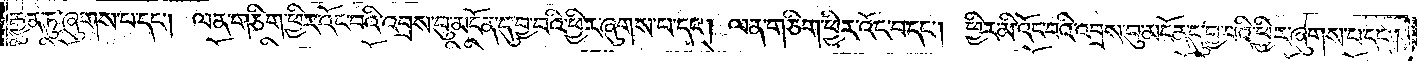རྒྱུན་ཏུ་ཞུགས་པ་དང༌། ལན་གཅིག་ཕྱིར་འོང་བའི་འབྲས་བུ་མངོན་དུ་བྱ་བའི་ཕྱིར་ཞུགས་པ་དང༌། ལན་གཅིག་ཕྱིར་འོང་བ་དང༌། ཕྱིར་མི་འོང་བའི་འབྲས་བུ་མངོན་དུ་བྱ་བའི་ཕྱིར་ཞུགས་པ་དང༌།
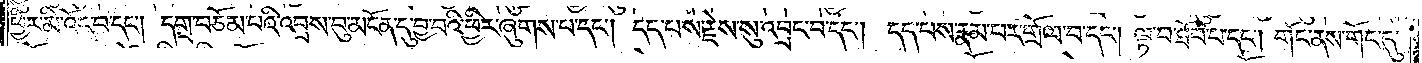ཕྱིར་མི་འོང་བ་དང༌། དགྲ་བཅོམ་པའི་འབྲས་བུ་མངོན་དུ་བྱ་བའི་ཕྱིར་ཞུགས་པ་དང༌། དད་པས་རྗེས་སུ་འབྲང་བ་དང༌། དད་པས་རྣམ་པར་གྲོལ་བ་དང༌། ལྟ་བ་ཐོབ་པ་དང༌། གོང་ནས་གོང་དུ་
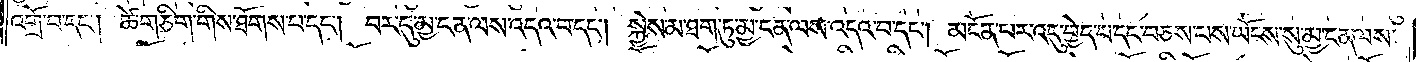འགྲོ་བ་དང༌། ཚེ་གཅིག་གིས་ཐོགས་པ་དང༌། བར་དུ་མྱ་ངན་ལས་འདའ་བ་དང༌། སྐྱེས་མ་ཐག་ཏུ་མྱ་ངན་ལས་འདའ་བ་དང༌། མངོན་པར་འདུ་བྱེད་པ་དང་བཅས་པས་ཡོངས་སུ་མྱ་ངན་ལས་
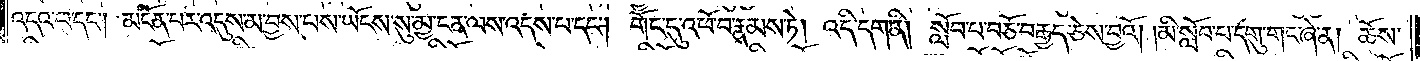འདའ་བ་དང༌། མངོན་པར་འདུས་མ་བྱས་པས་ཡོངས་སུ་མྱ་ངན་ལས་འདས་པ་དང༌། གོང་དུ་འཕོ་བ་རྣམས་ཏེ། འདི་དག་ནི། སློབ་པ་བཅོ་བརྒྱད་ཅེས་བྱའོ། །མི་སློབ་པ་དགུ་གང་ཞེ་ན། ཆོས་
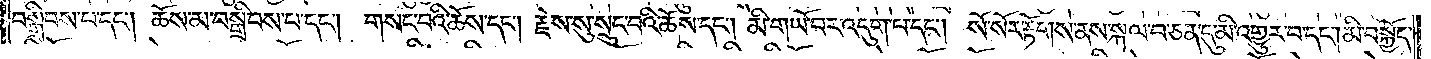བསྒྲིབས་པ་དང༌། ཆོས་མ་བསྒྲིབས་པ་དང༌། གསང་བའི་ཆོས་དང༌། རྗེས་སུ་སྲུང་བའི་ཆོས་དང༌། མི་གཡོ་བར་འདུག་པ་དང༌། སོ་སོར་རྟོགས་ནས་སྐལ་བ་ཅན་དུ་མི་འགྱུར་བ་དང༌། མི་བསྐྱོད་
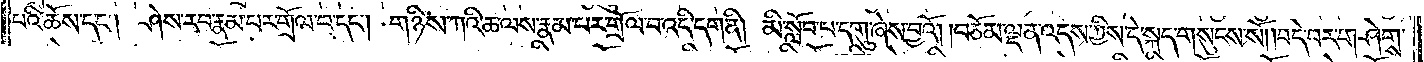པའི་ཆོས་དང༌། ཤེས་རབ་རྣམ་པར་གྲོལ་བ་དང༌། གཉིས་ཀའི་ཆ་ལས་རྣམ་པར་གྲོལ་བ་འདི་དག་ནི། མི་སློབ་པ་དགུ་ཞེས་བྱའོ། །བཅོམ་ལྡན་འདས་ཀྱིས་དེ་སྐད་གསུངས་སོ། །བདེ་བར་གཤེགས་
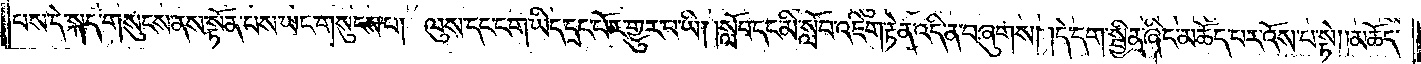པས་དེ་སྐད་གསུངས་ནས་སྟོན་པས་ཡང་གསུངས་པ། ལུས་དང་ངག་ཡིད་དྲང་པོར་གྱུར་པ་ཡི། །སློབ་དང་མི་སློབ་འཇིག་རྟེན་འདི་ན་བཞུགས། །དེ་དག་སྦྱིན་ཞིང་མཆོད་པར་འོས་པ་སྟེ། །མཆོད་
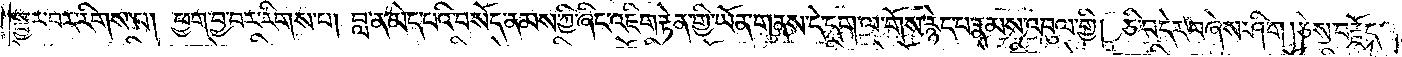སྦྱར་བར་རིགས་པ། ཕྱག་བྱ་བར་རིགས་པ། བླ་ན་མེད་པའི་བསོད་ནམས་ཀྱི་ཞིང་འཇིག་རྟེན་གྱི་ཡོན་གནས་དེ་དག་ལ་གོས་རྙེད་པ་རྣམས་འབུལ་གྱི། ཅི་བདེར་བཞེས་ཤིག །ཅེས་བརྗོད་
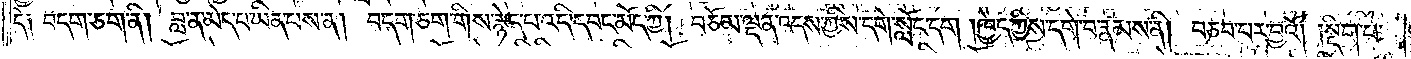དེ༑ བདག་ཅག་ནི། བླ་ན་མེད་པ་ཡིན་པས་ན། བདག་ཅག་གིས་རྙེད་པ་འདི་དབང་མོད་ཀྱི། བཅོམ་ལྡན་འདས་ཀྱིས་དགེ་སློང་དག །ཁྱེད་ཀྱིས་དགེ་བ་རྣམས་ནི། བཅབ་པར་བྱའོ། །སྡིག་པ་
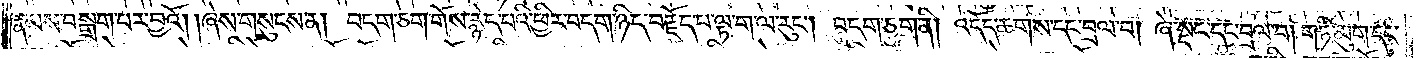རྣམས་བསྒྲག་པར་བྱའོ། །ཞེས་གསུངས་ན། བདག་ཅག་གོས་རྙེད་པའི་ཕྱིར་བདག་ཉིད་བརྗོད་པ་ལྟ་ག་ལ་རུང༌། བདག་ཅག་ནི། འདོད་ཆགས་དང་བྲལ་བ། ཞེ་སྡང་དང་བྲལ་བ། གཏི་མུག་དང་
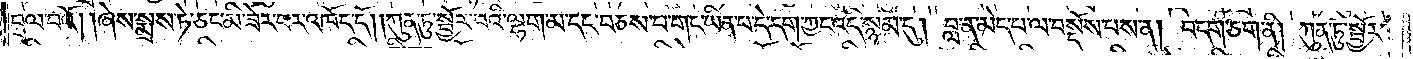བྲལ་བའོ། །ཞེས་སྨྲས་ཏེ་ཅང་མི་ཟེར་བར་འཁོད་དོ། །ཀུན་ཏུ་སྦྱོར་བའི་ལྷག་མ་དང་བཅས་པ་གང་ཡིན་པ་དེ་དག་ཀྱང་འདི་སྙམ་དུ། བླ་ན་མེད་པ་ལ་བསྡོས་པས་ན། བདག་ཅག་ནི། ཀུན་ཏུ་སྦྱོར་
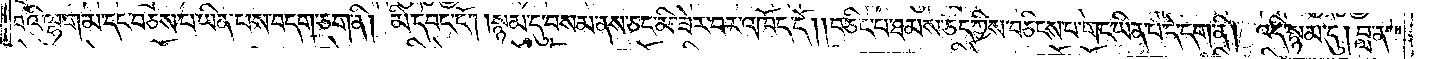བའི་ལྷག་མ་དང་བཅས་པ་ཡིན་པས་བདག་ཅག་ནི། མི་དབང་ངོ༌། །སྙམ་དུ་བསམ་ནས་ཅང་མི་ཟེར་བར་འཁོད་དོ། །བཅིང་པ་ཐམས་ཅད་ཀྱིས་བཅིངས་པ་གང་ཡིན་པ་དེ་དག་ནི། འདི་སྙམ་དུ། བླ་ན་
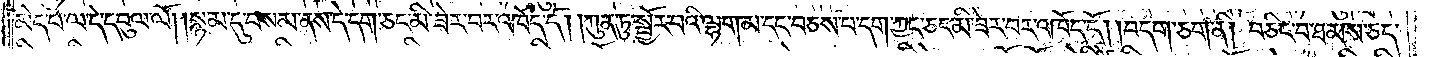མེད་པ་ལ་དེ་དབུལ་ལོ། །སྙམ་དུ་བསམ་ནས་དེ་དག་ཅང་མི་ཟེར་བར་འཁོད་དོ། །ཀུན་ཏུ་སྦྱོར་བའི་ལྷག་མ་དང་བཅས་པ་དག་ཀྱང་ཅང་མི་ཟེར་བར་འཁོད་དོ། །བདག་ཅག་ནི། བཅིང་བ་ཐམས་ཅད་
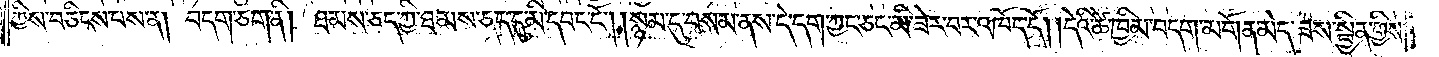ཀྱིས་བཅིངས་པས་ན། བདག་ཅག་ནི། ཐམས་ཅད་ཀྱི་ཐམས་ཅད་དུ་མི་དབང་ངོ༌། །སྙམ་དུ་བསམ་ནས་དེ་དག་ཀྱང་ཅང་མི་ཟེར་བར་འཁོད་དོ། །དེའི་ཚེ་ཁྱིམ་བདག་མགོན་མེད་ཟས་སྦྱིན་གྱིས་
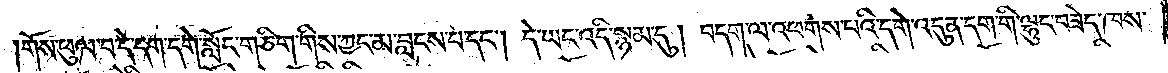གོས་ཕུལ་བ་དེ་དག་དགེ་སློང་གཅིག་གིས་ཀྱང་མ་བླངས་པ་དང༌། དེ་ཡང་འདི་སྙམ་དུ། བདག་ལ་འཕགས་པའི་དགེ་འདུན་དག་གི་ལྷུང་བཟེད་ཁས་
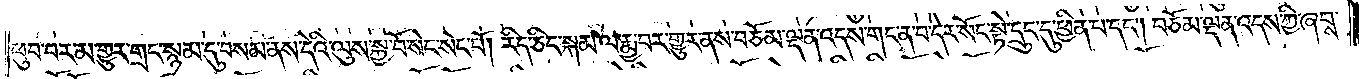ཕུབ་བར་མ་གྱུར་གྲང་སྙམ་དུ་བསམ་ནས་དེའི་ལུས་སྐྱ་བོ་སེང་སེང་པོ། རིད་ཅིང་སྐམ་ལ་རྨྱ་བར་གྱུར་ནས་བཅོམ་ལྡན་འདས་གང་ན་བ་དེར་སོང་སྟེ་དྲུང་དུ་ཕྱིན་པ་དང༌། བཅོམ་ལྡན་འདས་ཀྱི་ཞབས་
